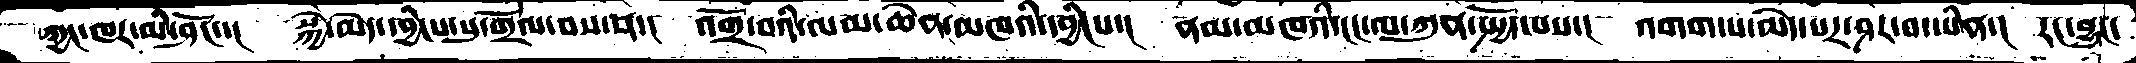ཀྱང་ཁར་མི་ཤོང་་།   སྐྱེ་མེད་དབྱིངས་སུ་གྲོལ་བས་ན་།   འགྲོ་བའི་ལམ་ཆེན་མཁའི་དབྱིངས་།   ནམ་མཁའི་ངང་ལ་ཀུན་སྤྱོད་པས་།   འགག་པ་མེད་པར་ཤར་བ་ཡིན་།  རང་བྱུང་
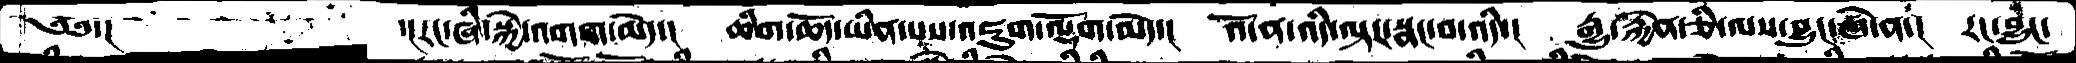༄༅་།            ་།རང་བཞིན་སྐྱེ་འགག་མེད་།   ཆིག་ཆོད་ཡིན་པས་འཇུག་ལྡོག་མེད་།   འོ་ན་འདི་ལྟར་སྣང་བ་འདི་།   རྒྱུ་རྐྱེན་ཅི་ལས་བྱུང་ཞེ་ན་།   རང་བྱུང་
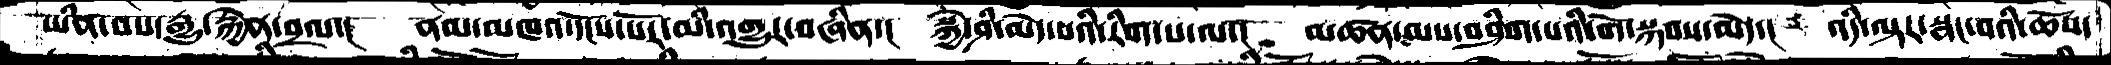ཡིན་པས་རྒྱུ་རྐྱེན་བྲལ་།   ནམ་མཁའ་དངོས་པོར་མིི་འགྱུར་བཞིན་།   སྐྱེ་ཤི་མེད་པའི་རིག་པ་ལ་།   མཚན་མས་བཤིག་པའི་གོ་སྐབས་མེད་།   འདི་ལྟར་སྣང་བའི་ཆོས་
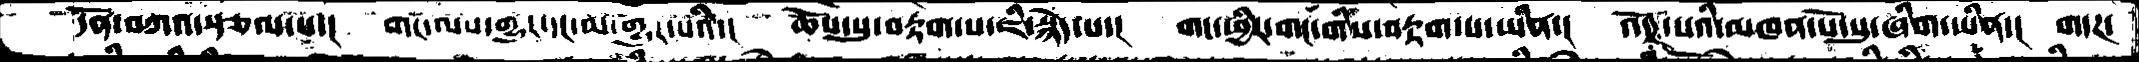དོན་བཀའ་སྩལ་པ་།   གང་ལས་གྱུར་དང་མ་གྱུར་པའི་།   ཆོས་སུ་བརྟག་པ་ཇི་སྙེད་པ་།   གང་ཕྱིར་གང་གིས་བརྟག་པ་ཡིན་།  འདོཌ་སའི་མཁན་པོ་སུ་ཞིག་ཡིན་།   གདཌ་
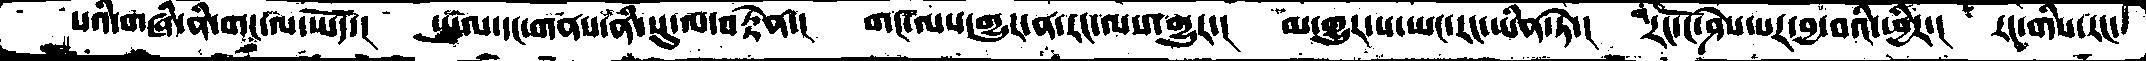པའི་གཞི་ནི་གང་ལ་ཡོད་།   ཡུལ་དང་གནས་ནི་སུ་ལ་བརྟེན་།   གང་ལས་གྱུར་ན་རང་ལས་གྱུར་།   མ་གྱུར་པ་ཡང་རང་ཡིན་ཏེ་།   རང་ངོ་ཤེས་པར་བྱ་བའི་ཕྱིར་།   རང་གིས་རང་
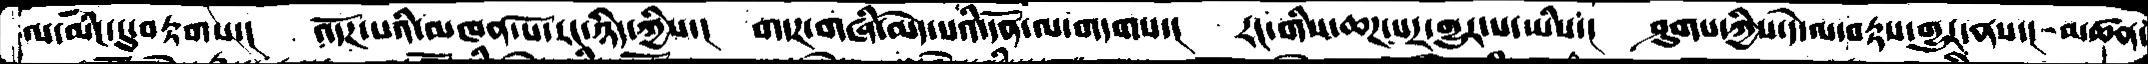ལ་མིང་དུ་བརྟགས་།   འདོཌ་པའི་མཁན་པོ་རང་ཉིད་ཀྱིས་།   གདཌ་གཞི་མེད་པའི་དོན་ལ་གདགས་།   རང་གིས་ཆཌ་པར་གྱུར་པ་ཡིས་།   ཤུགས་ཀྱིས་དེ་ལ་བརྟས་གྱུར་ནས་།  མཚན་
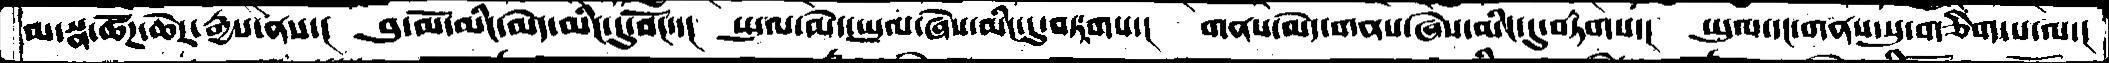མ་སྣ་ཚོཌ་ཆེར་རྒྱས་ནས་།   བུ་མོ་མིང་མེད་མིང་དུ་བོང་་།  ཡུལ་མེད་ཡུལ་ཞེས་མིང་དུ་བཏགས་།  གནས་མེད་གནས་ཞེས་མིང་དུ་བཏགས་།  ཡུལ་དང་གནས་སུ་གཅིག་པ་ལ་།
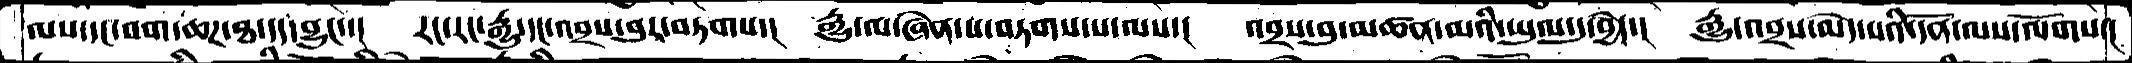ལས་དང་བག་ཆཌ་ཐ་དད་བྱུང་་།  རང་རང་རྒྱུ་དང་འབྲས་བུར་བཏགས་།  རྒྱུ་ལ་ཞེན་པ་བཏགས་པ་ལས་།  འབྲས་བུ་མཚན་མའི་ཡུལ་དུ་བྱེད་།  རྒྱུ་འབྲས་མེད་པའི་དོན་ལས་ལོགས་།
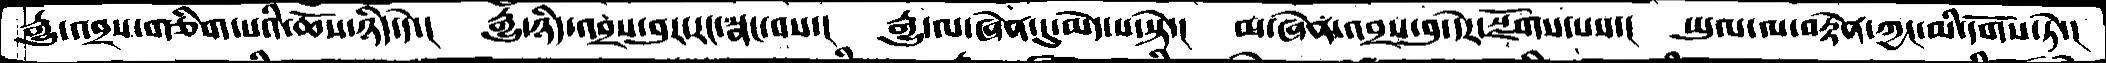རྒྱུ་འབྲས་གཅིག་པའི་ཆོས་ཉིད་དེ་།  རྒྱུ་ཉིད་འབྲས་བུར་རང་སྣང་བས་།  རྒྱུ་ལ་ཞེན་དུ་མེད་པ་སྟེ་།  མ་ཞེན་འབྲས་བུ་དེར་སྫོགས་པས་།  ཡུལ་ལ་བརྟེན་ཀྱང་མི་དགོས་ཏེ་།
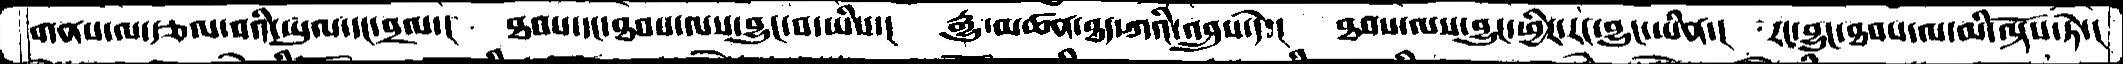གནས་ལ་རྩལ་བའི་ཡུལ་དང་བྲལ་།  ཐབས་དང་ཐབས་ལས་བྱུང་བ་ཡིས་།  རྒྱུ་མཚན་ཐད་ཀའི་འབྲུས་དེ་།   ཐབས་ལས་བྱུང་ཕྱིར་རང་བྱུང་ཡིན་།  རང་བྱུང་ཐབས་ལ་མི་ལྟོས་ཏེ་།
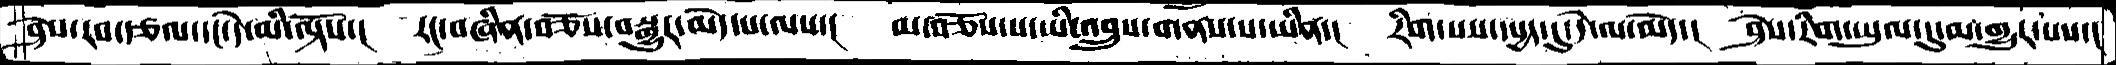ཤེསརབ་རྩལ་དང་དེ་མི་ལྟོས་།  རང་བཞིན་བཅོས་བསྒྱུར་མེད་པ་ལས་།  མ་བཅོས་པ་་ཡི་འབྲུས་གནས་པ་ཡིན་།  རིག་པས་དཔྱད་དུ་དེ་ལ་མེད་།  ཤེས་་རིག་ཡུལ་དུ་མ་གྱུར་པས་།
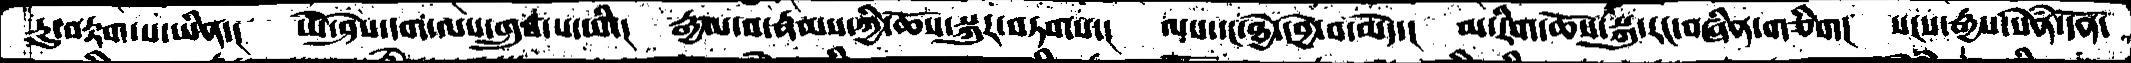རུ་བརྟག་པ་ཡིན་།  ཡེ་ཤེས་དག་ལས་གྲུབ་པ་ཡི་།  རྒྱལ་བ་རྣམས་ཀྱི་ཆོས་སྐུར་བཏགས་།  ལས་དང་ཐྱེ་དབྱེ་བ་མེད་།  མ་རིག་ཆོས་སྐུ་རང་བཞིན་གཅིག།  སངས་རྒྱས་སེཾན་དོན་
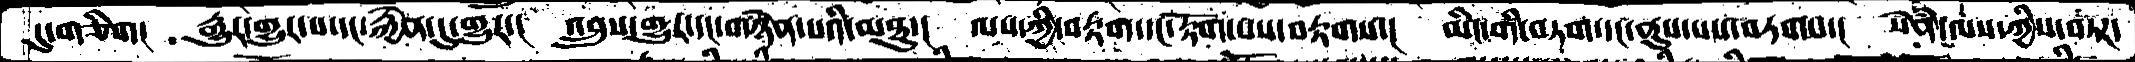དུ་གཅིག།  རྒྱུར་གྱུར་པ་དང་རྐྱེན་དུ་གྱུར་།  འབྲུས་གྱུར་དང་གཉེན་པའི་མཐུ་།  ལས་ཀྱི་བརྟག་དང་རྟོག་པས་བརྟགས་།  མིང་གི་བཏག་དང་ནུས་པས་བཏགས་།  སེཾན་ལས་ཀྱིས་བཏཌ་
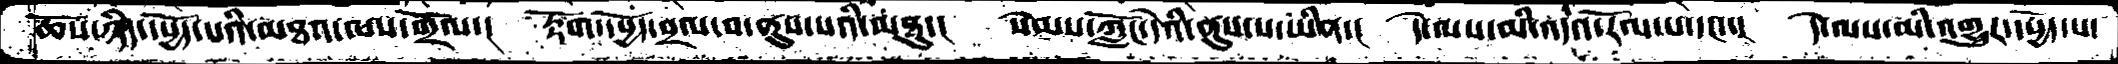ཆོས་ཉིད་དཔྱོད་པའི་མཐའ་ལས་གྲོལ་།  རྟོག་དཔྱོད་བྲལ་བ་ནུས་པའི་མཐུ་།  སེམས་ཀློང་དེའི་ནུས་པ་ཡིན་།  དེ་ལས་མི་འདའ་རོལ་པ་དང་་།  དེ་ལས་མི་འགྱུར་དཔྱོད་པ་
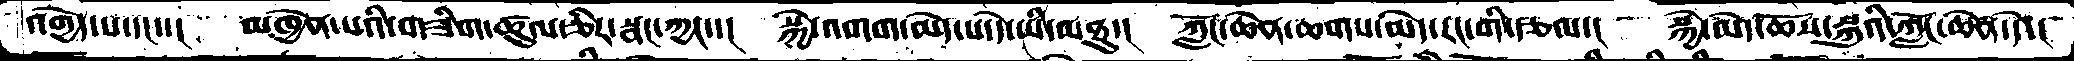འགྱེད་པ་དང་་།  མཁྱེན་པའི་གཟིག་ཚུལ་ཅིར་སྣང་ཀྱང་་།  སྐྱེ་འགག་མེད་པ་དེ་ཡི་མཐུ་།  ཀློང་ཆེན་ཆགས་མེད་རང་གི་རྩལ་།  སྐྱེ་མེད་ཆོས་སྐུའི་ཀློང་ཆེན་དེ་།
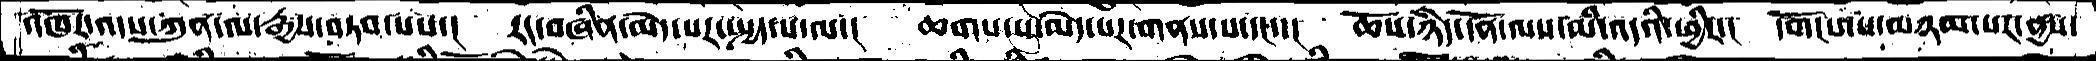འཁོར་འདས་ཀུན་ལ་རྒྱས་བཏབ་པས་།  རང་བཞིན་མེད་པར་སྤྱད་པ་ལ་།  ཆགས་པ་མེད་པར་གནས་པ་དང་་།  ཆོས་ཉིད་དོན་ལས་མི་འདའི་ཕྱིར་།  དགོངས་པ་མཉམ་པར་ནྱས་
